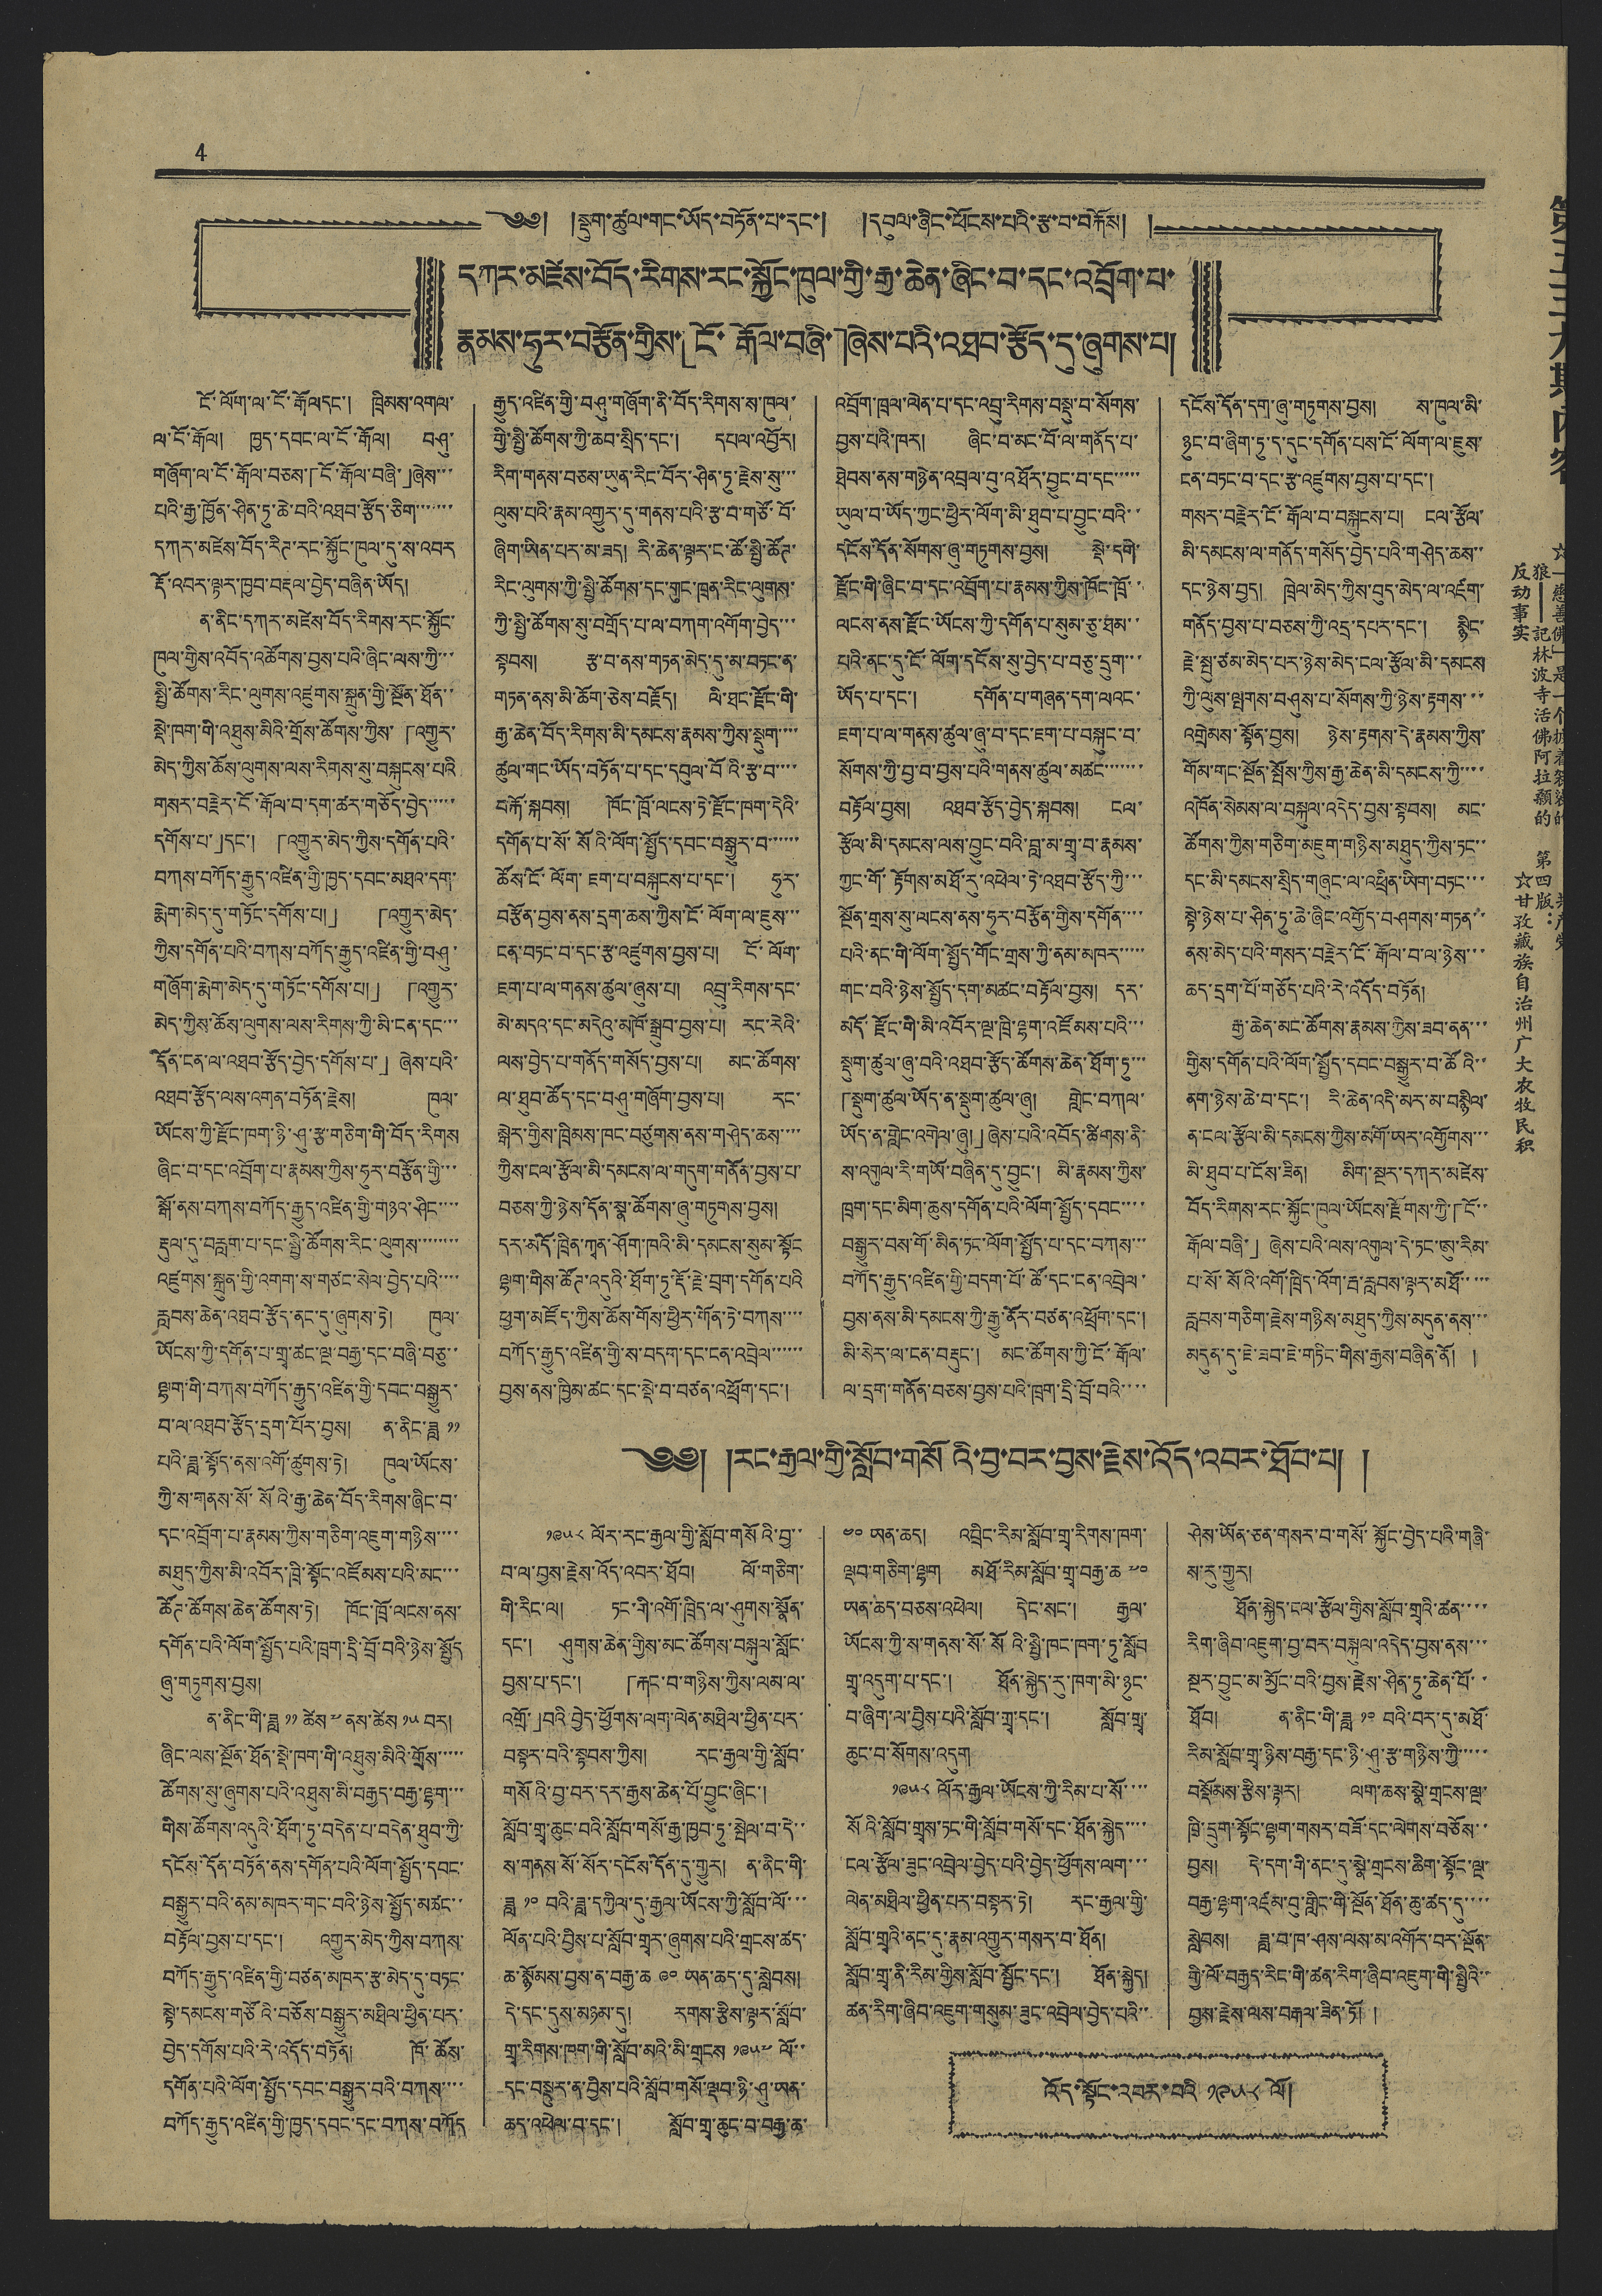4
༄༅། །སྡུག་ཚུལ་གང་ཡོད་བཏོན་པ་དང་། །དབུལ་ཞིང་ཕོངས་པའི་རྩ་བ་བརྐོས། །
དཀར་མཛེས་བོད་རིགས་རང་སྐྱོང་ཁུལ་གྱི་རྒྱ་ཆེན་ཞིང་བ་དང་འབྲོག་པ་
རྣམས་ཧུར་བརྩོན་གྱིས་「ངོ་རྒོལ་བཞི་」ཞེས་པའི་འཐབ་རྩོད་དུ་ཞུགས་པ།
ངོ་ལོག་ལ་ངོ་རྒོལ དང་། ཁྲིམས་འགལ་
ལ་ངོ་རྒོལ། ཁྱད་དབང་ལ་ངོ་རྒོལ། བཤུ་
གཞོག་ལ་ངོ་རྒོལ་བཅས་「ངོ་རྒོལ་བཞི་」ཞེས་་་
པའི་རྒྱ་ཁྱོན་ཤིན་ཏུ་ཆེ་བའི་འཐབ་རྩོད་ཅིག་་་་་་་
དཀར་མཛེས་བོད་རིཊ་རང་སྐྱོང་ཁུལ་དུ་ས་འབར
རྡོ་འབར་ལྟར་ཁྱབ་བརྡལ་བྱེད་བཞིན་ཡོད།
ན་ནིང་དཀར་མཛེས་བོད་རིགས་རང་སྐྱོང་
ཁུལ་གྱིས་འབོད་འཚོགས་བྱས་པའི་ཞིང་ལས་ཀྱི་་་
སྤྱི་ཚོགས་རིང་ལུགས་འཛུགས་སྐྲུན་གྱི་སྔོན་ཐོན་་
སྡེ་ཁག་གི་འཐུས་མིའི་གྲོས་ཚོགས་ཀྱིས་「འགྱུར་
མེད་ཀྱིས་ཆོས་ལུགས་ལས་རིགས་སུ་བསྐུངས་པའི
གསར་བརྗེར་ངོ་རྒོལ་བ་དག་ཚར་གཅོད་བྱེད་་་་་
དགོས་པ་」དང་། 「འགྱུར་མེད་ཀྱིས་དགོན་པའི་
བཀས་བཀོད་རྒྱུད་འཛིན་གྱི་ཁྱད་དབང་མཐའ་དག་
རྨེག་མེད་དུ་གཏོང་དགོས་པ།」 「འགྱུར་མེད་
ཀྱིས་དགོན་པའི་བཀས་བཀོད་རྒྱུད་འཛིན་གྱི་བཤུ་
གཞོག་རྨེག་མེད་དུ་གཏོང་དགོས་པ།」 「འགྱུར་
མེད་ཀྱིས་ཆོས་ལུགས་ལས་རིགས་ཀྱི་མི་ངན་དང་་་
དོན་ངན་ལ་འཐབ་རྩོད་བྱེད་དགོས་པ་」 ཞེས་པའི་
འཐབ་རྩོད་ལས་འགན་བཏོང་རྗེས། ཁུལ་
ཡོངས་ཀྱི་རྫོང་ཁག་ཉི་ཤུ་རྩ་གཅིག་གི་བོད་རིགས
ཞིང་བ་དང་འབྲོག་པ་རྣམས་ཀྱིས་ཧུར་བརྩོན་གྱི་་་
སྒོ་ནས་བཀས་བཀོད་རྒྱུད་འཛིན་གྱི་གཉའ་ཤིང་་་་
རྡུལ་དུ་བརླག་པ་དང་སྤྱི་ཚོགས་རིང་ལུགས་་་་་་་་
འཛུགས་སྐྲུན་གྱི་འགག་ས་གཙང་སེལ་བྱེད་པའི་་་་
རླབས་ཆེན་འཐབ་རྩོད་ནང་དུ་ཞུགས་ཏེ། ཁུལ་
ཡོངས་ཀྱི་དགོན་པ་གྲྭ་ཚང་ལྔ་བརྒྱ་དང་བཞི་བཅུ་་
ལྷག་གི་བཀས་བཀོད་རྒྱུད་འཛིན་གྱི་དབང་བསྒྱུར་
བ་ལ་འཐབ་རྩོད་དྲག་པོར་བྱས། ན་ནིང་ཟླ ༡༡
པའི་ཟླ་སྟོད་ནས་འགོ་ཚུགས་ཏེ། ཁུལ་ཡོངས་
ཀྱི་ས་གནས་སོ་སོའི་རྒྱ་ཆེན་བོད་རིགས་ཞིང་བ་
དང་འབྲོག་པ་རྣམས་ཀྱིས་གཅིག་འཇུག་གཉིས་་་་
མཐུད་ཀྱིས་མི་འབོར་ཁྲི་སྟོང་འཛོམས་པའི་མང་་་
ཚོཊ་ཚོགས་ཆེན་ཚོགས་ཏེ། ཁོང་ཁྲོ་ལངས་ནས་
དགོན་པའི་ལོག་སྤྱོད་པའི་ཁྲག་དྲི་བྲོ་བའི་ཉེས་སྤྱོད་
ཞུ་གཏུགས་བྱས།
ན་ནིང་གི་ཟླ ༡༡ ཚེས ༧ ནས་ཚེས ༡༥ བར།
ཞིང་ལས་སྔོན་ཐོན་སྡེ་ཁག་གི་འཐུས་མིའི་གྲོས་་་་་
ཚོགས་སུ་ཞུགས་པའི་འཐུས་མི་བརྒྱད་བརྒྱ་ལྷག་་་
གིས་ཚོགས་འདུའི་ཐོག་ཏུ་འདེན་པ་བདེན་ཐུབ་ཀྱི་
དངོས་དོན་བཏོན་ནས་དགོན་པའི་ལོག་སྤྱོད་དབང་
བསྒྱུར་བའི་ནམ་མཁར་གང་བའི་ཉེས་སྤྱོད་མཚང་་
བརྟོལ་བྱས་པ་དང་། འགྱུར་མེད་ཀྱིས་བཀས་
བཀོད་རྒྱུད་འཛིན་གྱི་བཙན་མཁར་རྩ་མེད་དུ་བཏང་
སྟེ་དམངས་གཙོའི་བཅོས་བསྒྱུར་མཐིལ་ཕྱིན་པར་
བྱེད་དགོས་པའི་རེ་འདོད་བཏོན། ཁོ་ཚོས་
དགོན་པའི་ལོག་སྤྱོད་དབང་བསྒྱུར་བའི་བཀས་་་་
བཀོད་རྒྱུད་འཛིན་གྱི་ཁྱད་དབང་དང་བཀས་བཀོད
རྒྱུད་འཛིན་གྱི་བཤུ་གཞོག་ནི་བོད་རིགས་ས་ཁུལ་
གྱི་སྤྱི་ཚོགས་ཀྱི་ཆབ་སྲིད་དང་། དཔལ་འབྱོར།
རིག་གནས་བཅས་ཡུན་རིང་བོར་ཤིན་ཏུ་རྗེས་སུ་་་
ལུས་པའི་རྣམ་འགྱུར་དུ་གནས་པའི་རྩ་བ་གཙོ་བོ་
ཞིག་ཡིན་པར་མ་ཟད། རི་ཆེན་ལྟར་ང་ཚོ་སྤྱི་ཚོཊ་
རིང་ལུགས་ཀྱི་སྤྱི་ཚོགས་དང་གུང་ཁྲན་རིང་ལུགས་
ཀྱི་སྤྱི་ཚོགས་སུ་བགྲོད་པ་ལ་བཀག་འགོག་བྱེད་་་
སྟབས། རྩ་བ་ནས་གཏན་མེད་དུ་མ་བཏང་ན་
གཏན་ནས་མི་ཆོག་ཅེས་བརྗོད། ལི་ཐང་རྫོང་གི་
རྒྱ་ཆེན་བོད་རིགས་མི་དམངས་རྣམས་ཀྱིས་སྡུག་་་་
ཚུལ་གང་ཡོད་བཏོན་པ་དང་དབུལ་བོའི་རྩ་བ་་་་
བརྐོ་སྐབས། ཁོང་ཁྲོ་ལངས་ཏེ་རྫོང་ཁག་དེའི་
དགོན་པ་སོ་སོའི་ལོག་སྤྱོད་དབང་བསྒྱུར་བ་་་་་་
ཚོས་ངོ་ལོག་ཇག་པ་བསྐུངས་པ་དང་། ཧུར་
བརྩོན་བྱས་ནས་དྲག་ཆས་ཀྱིས་ངོ་ལོག་ལ་ཇུས་་་
ངན་བཏང་བ་དང་རྩ་འཛུགས་བྱས་པ། ངོ་ལོག་
ཇག་པ་ལ་གནས་ཚུལ་ཞུས་པ། འབྲུ་རིགས་དང་
མེ་མདའ་དང་མདེའུ་མཁོ་སྒྲུབ་བྱས་པ། རང་རེའི་
ལས་བྱེད་པ་གནོད་གསོད་བྱས་པ། མང་ཚོགས་
ལ་ཐུབ་ཚོད་དང་བཤུ་གཞོག་བྱས་པ། རང་
སྒེར་གྱིས་ཁྲིམས་ཁང་བཙུགས་ནས་གཤེད་ཆས་་་་
ཀྱིས་ངལ་རྩོལ་མི་དམངས་ལ་གདུག་གནོན་བྱས་པ་
བཅས་ཀྱི་ཉེས་དོན་སྣ་ཚོགས་ཞུ་གཏུགས་བྱས།
དར་མདོ་ཁྲིན་ཀྭན་ཤོག་ཁའི་མི་དམངས་སུམ་སྟོང
ལྷག་གིས་ཚོཊ་འདུའི་ཐོག་ཏུ་རྡོ་རྗེ་བྲག་དགོན་པའི
ཕྱག་མཛོད་ཀྱིས་ཆོས་གོས་ཕྱིར་གོན་ཏེ་བཀས་་་་
བཀོད་རྒྱུད་འཛིན་གྱི་ས་བདག་དང་ངན་འབྲེལ་་་་་་
བྱས་ནས་ཁྱིམ་ཚང་དང་སྡེ་བ་བཙན་འཕྲོག་དང་།
འབྲོག་ཁྲལ་ལེན་པ་དང་འབྲུ་རིགས་བསྡུ་བ་སོགས་
བྱས་པའི་ཁར། ཞིང་བ་མང་བོ་ལ་གནོད་པ་
ཐེབས་ནས་གཉེན་འབྲལ་བུ་འཐོར་བྱུང་བ་དང་་་་་
ཡུལ་བ་ཡོད་ཀྱང་ཕྱིར་ལོག་མི་ཐུབ་པ་བྱུང་བའི་་
དངོས་དོན་སོགས་ཞུ་གཏུགས་བྱས། སྡེ་དགེ་
རྫོང་གི་ཞིང་བ་དང་འབྲོག་པ་རྣམས་ཀྱིས་ཁོང་ཁྲོ་་
ལངས་ནས་རྫོང་ཡོངས་ཀྱི་དགོན་པ་སུམ་ཅུ་ཐམ་་
པའི་ནང་དུ་ངོ་ལོག་དངོས་སུ་བྱེད་པ་བཅུ་དྲུག་་་
ཡོད་པ་དང་། དགོན་པ་གཞན་དག་ལའང་
ཇག་པ་ལ་གནས་ཚུལ་ཞུ་བ་དང་ཇག་པ་བསྐུང་བ་
སོགས་ཀྱི་བྱ་བ་བྱས་པའི་གནས་ཚུལ་མཚང་་་་་་་
བརྟོལ་བྱས། འཐབ་རྩོད་བྱེད་སྐབས། ངལ་
རྩོལ་མི་དམངས་ལས་བྱུང་བའི་བླ་མ་གྲྭ་བ་རྣམས་
ཀྱང་གོ་རྟོགས་མཐོ་རུ་འཕེལ་ཏེ་འཐབ་རྩོད་ཀྱི་་་
སྔོན་གྲས་སུ་ལངས་ནས་ཧུར་བརྩོན་གྱིས་དགོན་་་་
པའི་ནང་གི་ལོག་སྤྱོད་གོང་གྲས་ཀྱི་ནམ་མཁར་་་་་
གང་བའི་ཉེས་སྤྱོད་དག་མཚང་བརྟོལ་བྱས། དར་
མདོ་རྫོང་གི་མི་འབོར་ལྔ་ཁྲི་ལྷག་འཛོམས་པའི་་་
སྡུག་ཚུལ་ཞུ་བའི་འཐབ་རྩོད་ཚོགས་ཆེན་ཐོག་ཏུ་་་
「སྡུག་ཚུལ་ཡོད་ན་སྡུག་ཚུལ་ཞུ། གླེང་བཀལ་
ཡོད་ན་གླེང་འགེལ་ཞུ།」ཞེས་པའི་འབོད་ཚིགས་ནི་
ས་འགུལ་རི་གཡོ་བཞིན་དུ་བྱུང་། མི་རྣམས་ཀྱིས་
ཁྲག་དང་མིག་ཆུས་དགོན་པའི་ལོག་སྤྱོད་དབང་་་་
བསྒྱུར་བས་གོ་མིན་ཏང་ལོག་སྤྱོད་པ་དང་བཀས་་་
བཀོད་རྒྱུད་འཛིན་གྱི་བདག་པོ་ཚོ་དང་ངན་འབྲེལ་
བྱས་ནས་མི་དམངས་ཀྱི་རྒྱུ་ནོར་བཙན་འཕྲོག་དང་།
མི་སེར་ལ་ངན་བརྡུང་། མང་ཚོགས་ཀྱི་ངོ་རྒོལ་
ལ་དྲག་གནོན་བཅས་བྱས་པའི་ཁྲག་དྲི་བྲོ་བའི་་་་
དངོས་དོན་དག་ཞུ་གཏུགས་བྱས། ས་ཁུལ་མི་
ཉུང་བ་ཞིག་ཏུ་ད་དུང་དགོན་པས་ངོ་ལོག་ལ་ཇུས་
ངན་བཏང་བ་དང་རྩ་འཛུགས་བྱས་པ་དང་།
གསར་བརྗེར་ངོ་རྒོལ་བ་བསྐུངས་པ། ངལ་རྩོལ་
མི་དམངས་ལ་གནོད་གསོད་བྱེད་པའི་གཤེད་ཆས་་
དང་ཉེས་བྱད། ཁྲེལ་མེད་ཀྱིས་བུད་མེད་ལ་འཛག་
གནོད་བྱས་པ་བཅས་ཀྱི་འདྲ་དཔར་དང་། སྙིང་
རྗེ་སྤུ་ཙམ་མེད་པར་ཉེས་མེད་ངལ་རྩོལ་མི་དམངས
ཀྱི་ལུས་སྤགས་བཤུས་པ་སོགས་ཀྱི་ཉེས་རྟགས་་་
འགྲེམས་སྟོན་བྱས། ཉེས་རྟགས་དེ་རྣམས་ཀྱིས་
གོམ་གང་སྔོན་སྤོས་ཀྱིས་རྒྱ་ཆེན་མི་དམངས་ཀྱི་་་་
འཁོན་སེམས་ལ་བསྐུལ་འདེད་བྱས་སྟབས། མང་
ཚོགས་ཀྱིས་གཅིག་མཇུག་གཉིས་མཐུད་ཀྱིས་ཏང་་
དང་མི་དམངས་སྲིད་གཞུང་ལ་འཕྲིན་ཡིག་བཏང་་་
སྟེ་ཉེས་པ་ཤིན་ཏུ་ཆེ་ཞིང་འགྱོད་བཤགས་གཏན་་
ནས་མེད་པའི་གསར་བརྗེར་ངོ་ཏགོལ་བ་ལ་ཉེས་་་
ཆད་དྲག་པོ་གཅོད་པའི་རེ་འདོད་བཏོན།
རྒྱ་ཆེན་མང་ཚོགས་རྣམས་ཀྱིས་ཟབ་ནན་་་
གྱིས་དགོན་པའི་ལོག་སྤྱོད་དབང་བསྒྱུར་བ་ཚོའི་་
ནག་ཉེས་ཆེ་བ་དང་། རི་ཆེན་འདི་མར་མ་བསྙིལ་
ན་ངལ་རྩོལ་མི་དམངས་ཀྱིས་མགོ་ཡར་འགྱོགས་་་
མི་ཐུབ་པ་ངོས་ཟིན། མིག་སྔར་དཀར་མཛེས་
བོད་རིགས་རང་སྐྱོང་ཁུལ་ཡོངས་རྫོགས་ཀྱི་「ངོ་་
རྒོལ་བཞི་」ཞེས་པའི་ལས་འགུལ་དེ་ཏང་ཨུ་རིམ་
པ་སོ་སོའི་འགོ་ཁྲིད་འོག་རྦ་རླབས་ལྟར་མཐོ་་་་་
རླབས་གཅིག་རྗེས་གཉིས་མཐུད་ཀྱིས་མདུན་ནས་་་
མདུན་དུ་ཇེ་ཟབ་ཇེ་གཏིང་གིས་རྒྱས་བཞིན་ནོ། །
༄༅། །རང་རྒྱལ་གྱི་སློབ་གསོའི་བྱ་བར་བྱས་རྗེས་འོད་འབར་ཐོབ་པ། །
༡༩༥༨ ལོར་རང་རྒྱལ་གྱི་སློབ་གསོའི་བྱ་་
བ་ལ་བྱས་རྗེས་འོད་འབར་ཐོབ། ལོ་གཅིག་
གི་རིང་ལ། ཏང་གི་འགོ་ཁྲིད་ལ་ཤུགས་སྣོན་
དང་། ཤུགས་ཆེན་གྱིས་མང་ཚོགས་བསྐུལ་སློང་
བྱས་པ་དང་། 「རྐང་བ་གཉིས་ཀྱིས་ལམ་ལ་
འགྲོ་」བའི་བྱེད་ཕྱོགས་ལག་ལེན་མཐིལ་ཕྱིན་པར་
བསྟར་བའི་སྟབས་ཀྱིས། རང་རྒྱལ་གྱི་སློབ་
གསོའི་བྱ་བར་དར་རྒྱས་ཆེན་པོ་བྱུང་ཞིང་།
སློབ་གྲྭ་ཆུང་བའི་སློབ་གསོ་རྒྱ་ཁྱབ་ཏུ་སྤེལ་བ་དེ་་
ས་གནས་སོ་སོར་དངོས་དོན་དུ་གྱུར། ན་ནིང་གི་
ཟླ ༡༠ བའི་ཟླ་དཀྱིལ་དུ་རྒྱལ་ཡོངས་ཀྱི་སློབ་ལོ་་་
ལོན་པའི་བྱིས་པ་སློབ་གྲྭར་ཞུགས་པའི་གྲངས་ཚད་
ཆ་སྙོམས་བྱས་ན་བརྒྱ་ཆ ༩༠ ཡན་ཆད་དུ་སླེབས།
དེ་དང་དུས་མ་མཉམ་དུ། རགས་རྩིས་ལྟར་སློབ་
གྲྭ་རིགས་ཁག་གི་སློབ་མའི་མི་གྲངས ༡༩༥༧ ལོ་་
དང་བསྡུར་ན་བྱིས་པའི་སློབ་གསོ་ལྡབ་ཉི་ཤུ་ཡན་
ཆད་འཕེལ་བ་དང་། སློབ་གྲྭ་ཆུང་བ་བརྒྱ་ཆ་
༤༠ ཡན་ཆད། འབྲིང་རིམ་སློབ་གྲྭ་རིགས་ཁག་
ལྡབ་གཅིག་ལྷག མཐོ་རིམ་སློབ་གྲྭ་བརྒྱ་ཆ ༧༠
ཡན་ཆད་བཅས་འཕེལ། དེང་སང་། རྒྱལ་
ཡོངས་ཀྱི་ས་གནས་སོ་སོའི་སྤྱི་ཁང་ཁག་ཏུ་སློབ
གྲྭ་འདུག་པ་དང་། ཐོན་སྐྱེད་རུ་ཁག་མི་ཉུང་
བ་ཞིག་ལ་བྱིས་པའི་སློབ་གྲྭ་དང་། སློབ་གྲྭ་
ཆུང་བ་སོགས་འདུག
༡༩༥༨ ལོར་རྒྱལ་ཡོངས་ཀྱི་རིམ་པ་སོ་་་་
སོའི་སློབ་གྲྭ་ཏང་གི་སློབ་གསོ་དང་ཐོན་སྐྱེད་་་་
ངལ་རྩོལ་ཟུང་འབྲེལ་བྱེད་པའི་བྱེད་ཕྱོགས་ལག་་་
ལེན་མཐིལ་ཕྱིན་པར་བསྟར་ཏེ། རང་རྒྱལ་གྱི་
སློབ་གྲྭའི་ནང་དུ་རྣམ་འགྱུར་གསར་བ་ཐོན།
སློབ་གྲྭ་ནི་རིམ་གྱིས་སློབ་སྦྱོང་དང་། ཐོན་སྐྱེད།
ཚན་རིག་ཞིབ་འཇུག་གསུམ་ཟུང་འབྲེལ་བྱེད་པའི་་
ཤེས་ཡོན་ཅན་གསར་བ་གསོ་སྐྱོང་བྱེད་པའི་གཞི་
ས་རུ་གྱུར།
ཐོན་སྐྱེད་ངལ་རྩོལ་གྱིས་སློབ་གྲྭའི་ཚན་་་་
རིག་ཞིབ་འཇུག་བྱ་བར་བསྐུལ་འདེད་བྱས་ནས་་་
སྔར་བྱུང་མ་མྱོང་བའི་བྱས་རྗེས་ཤིན་ཏུ་ཆེན་པོ་་
ཐོབ། ན་ནིང་གི་ཟླ ༡༠ བའི་བར་དུ་མཐོ་
རིམ་སློབ་གྲྭ་ཉིས་བརྒྱ་དང་ཉི་ཤུ་རྩ་གཉིས་ཀྱི་་་་་
བསྡོམས་རྩིས་ལྟར། ལག་ཆས་སྣེ་གྲངས་ལྔ་
ཁྲི་དྲུག་སྟོང་ལྷག་གསར་བཟོ་དང་ལེགས་བཅོས་་
བྱས། དེ་དག་གི་ནང་དུ་སྣེ་གྲངས་ཆིག་སྟོང་ལྔ་
བརྒྱ་ལྷག་འཛམ་བུ་གླིང་གི་སྔོན་ཐོན་ཆུ་ཚད་དུ་་་་
སླེབས། ཟླ་བ་ཁ་ཤས་ལས་མ་འགོར་བར་སྔོན་
གྱི་ལོ་བརྒྱད་རིང་གི་ཚན་རིག་ཞིབ་འཇུག་གི་སྤྱིའི་་
བྱས་རྗེས་ལས་བརྒལ་ཟིན་ཏོ། །
འོད་སྟོང་འབར་བའི ༡༩༥༨ ལོ།
